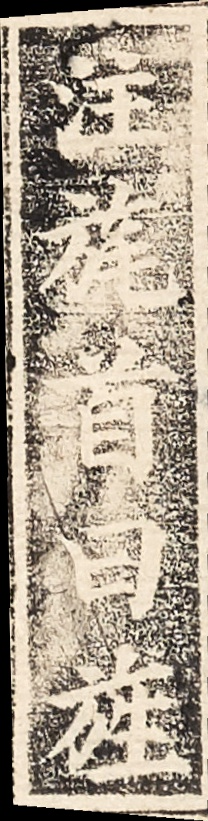注旄首曰旌
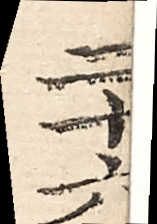二十六
